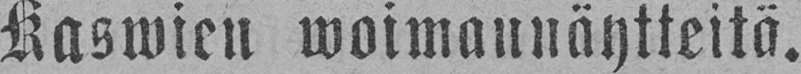Kaswien woimannäytteitä.
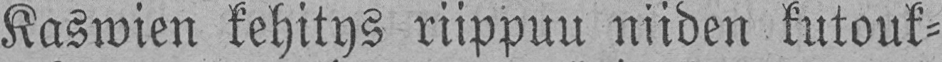Kaswien kehitys riippuu niiden kutouk-
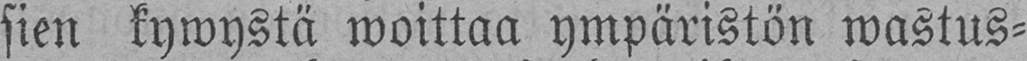sien kywystä woittaa ympäristön wastus-
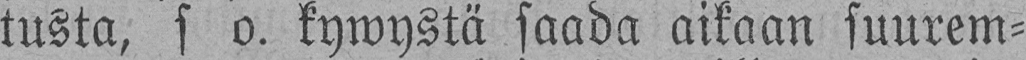tusta, s o. kywystä saada aikaan suurem-
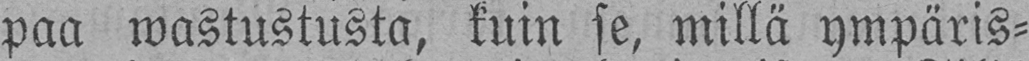paa wastustusta, kuin se, millä ympäris-
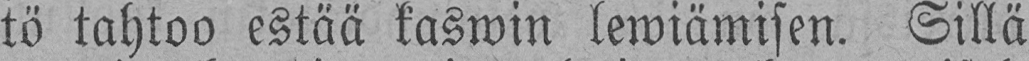tö tahtoo estää kaswin lewiämisen. Sillä
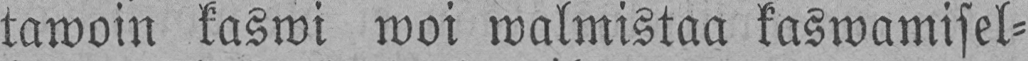tawoin kaswi woi walmistaa kaswamisel-
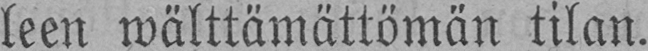leen wälttämättömän tilan.
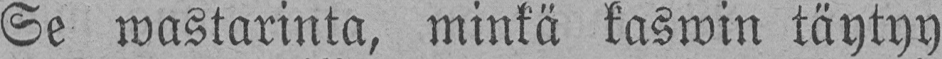Se wastarinta, minkä kaswin täytyy
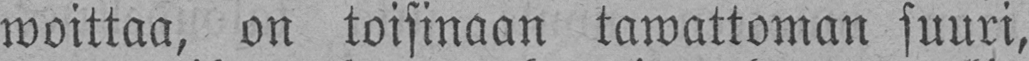woittaa, on toisinaan tawattoman suuri,
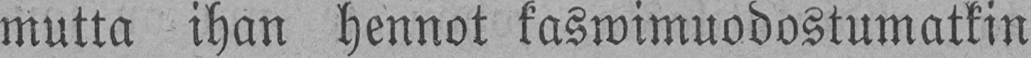mutta ihan hennot kaswimuodostumatkin
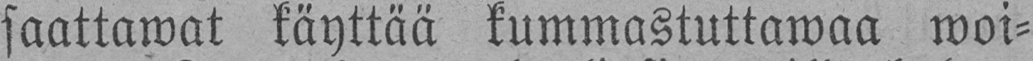saattawat käyttää kummastuttawaa woi-
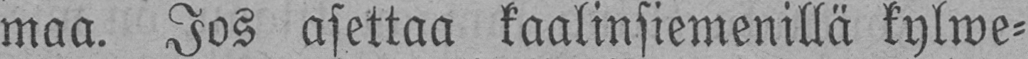maa. Jos asettaa kaalinsiemenillä kylwe-
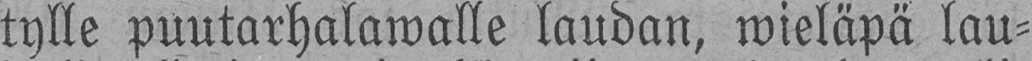tylle puutarhalawalle laudan, wieläpä lau-
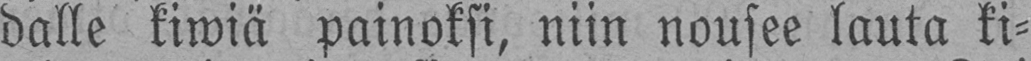dalle kiwiä painoksi, niin nousee lauta ki-
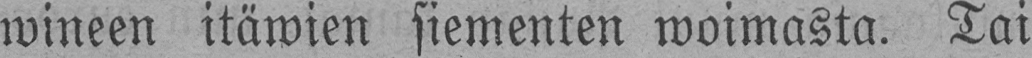wineen itäwien siementen woimasta. Tai
